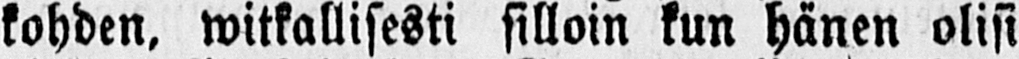kohden, witkallisesti silloin kun hänen olisi
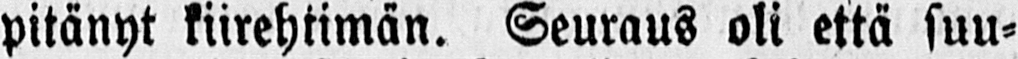pitänyt kiirehtimän. Seuraus oli että suu-
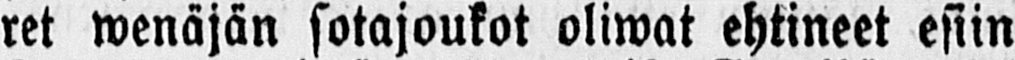ret wenäjän sotajoukot oliwat ehtineet esiin
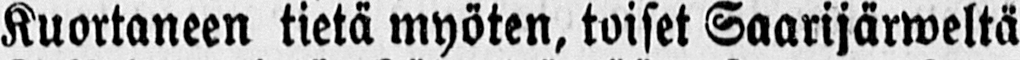Kuortaneen tietä myöten, toiset Saarijärweltä
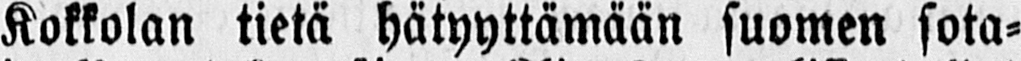Kokkolan tietä hätyyttämään suomen sota-
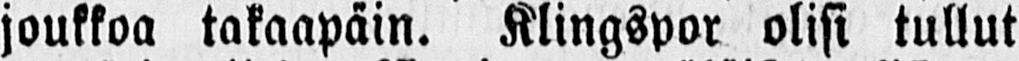joukkoa takaapäin. Klingspor olisi tullut
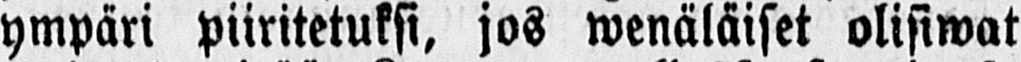ympäri piiritetuksi, jos wenäläiset olisiwat
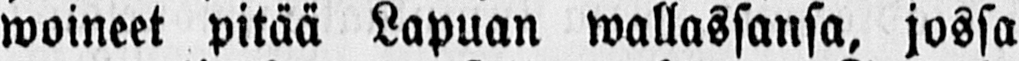woineet pitää Lapuan wallassansa, jossa
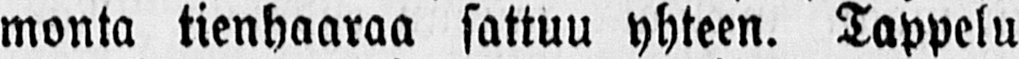monta tienhaaraa sattuu yhteen. Tappelu
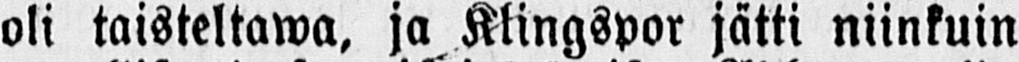oli taisteltawa, ja Klingspor jätti niinkuin
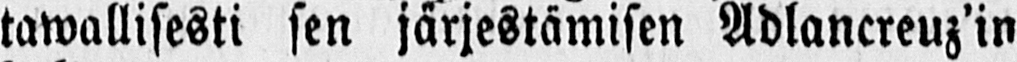tawallisesti sen järjestämisen Adlancreuz'in
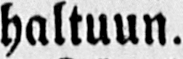haltuun.
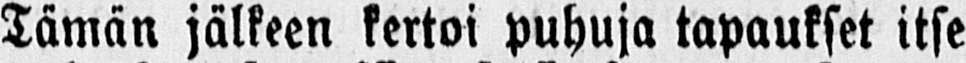Tämän jälkeen kertoi puhuja tapaukset itse
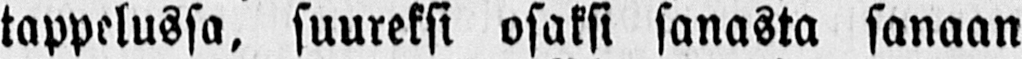tappelussa, suureksi osaksi sanasta sanaan
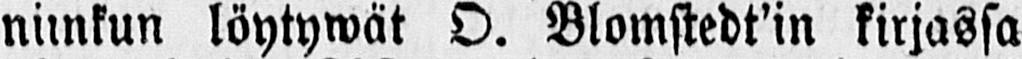niinkun löytywät O. Blomstedt'in kirjassa
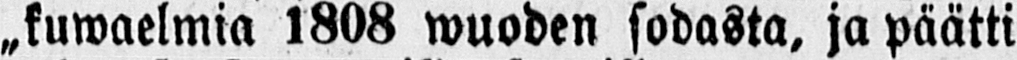„kuwaelmia 1808 wuoden sodasta, ja päätti
